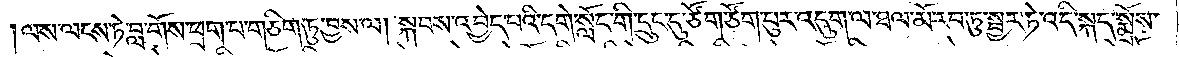ལས་ལངས་ཏེ་བླ་གོས་ཕྲག་པ་གཅིག་ཏུ་བྱས་ལ། སྐབས་འབྱེད་པའི་དགེ་སློང་གི་དྲུང་དུ་ཙོག་ཙོག་ཕུར་འདུག་ལ་ཐལ་མོ་རབ་ཏུ་སྦྱར་ཏེ་འདི་སྐད་སྨྲོས་
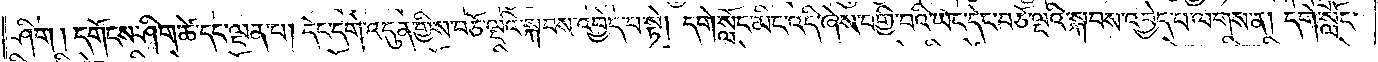ཤིག །དགོངས་ཤིག་ཚེ་དང་ལྡན་པ། དེང་དགེ་འདུན་གྱིས་བཅོ་ལྔའི་སྐབས་འབྱེད་པ་སྟེ། དགེ་སློང་མིང་འདི་ཞེས་བགྱི་བའི་ཡང་དེང་བཅོ་ལྔའི་སྐབས་འབྱེད་པ་ལགས་ན། དགེ་སློང་
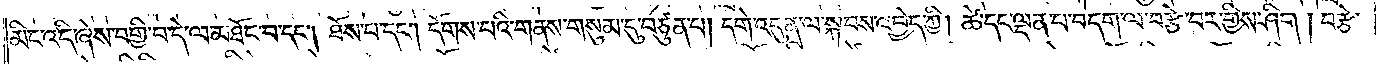མིང་འདི་ཞེས་བགྱི་བ་དེ་ལ་མཐོང་བ་དང༌། ཐོས་པ་དང༌། དོགས་པའི་གནས་གསུམ་དུ་བཙུན་པ། དགེ་འདུན་ལ་སྐབས་འབྱེད་ཀྱི། ཚེ་དང་ལྡན་པ་བདག་ལ་བརྩེ་བར་གྱིས་ཤིག །བརྩེ་
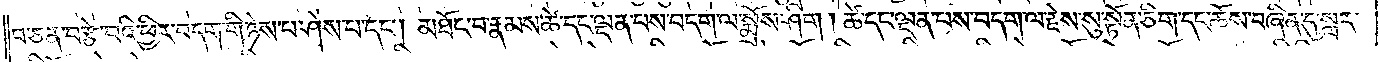བ་ཅན་བརྩེ་བའི་ཕྱིར་བདག་གི་ཉེས་པ་ཤེས་པ་དང༌། མཐོང་བ་རྣམས་ཚེ་དང་ལྡན་པས་བདག་ལ་སྨྲོས་ཤིག །ཚེ་དང་ལྡན་པས་བདག་ལ་རྗེས་སུ་སྟོན་ཅིག་དང་ཆོས་བཞིན་དུ་སླར་
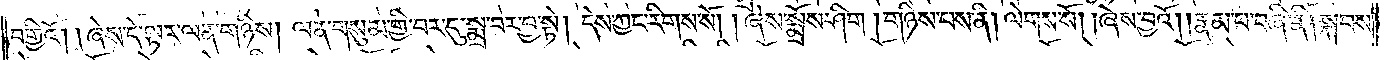བགྱིའོ། །ཞེས་དེ་ལྟར་ལན་གཉིས། ལན་གསུམ་གྱི་བར་དུ་སྨྲ་བར་བྱ་སྟེ། དེས་ཀྱང་རིགས་སོ། །ཞེས་སྨྲོས་ཤིག །གཉིས་པས་ནི། ལེགས་སོ། །ཞེས་བྱའོ། །རྣམ་པ་བཞི་ནི། །སྐབས་
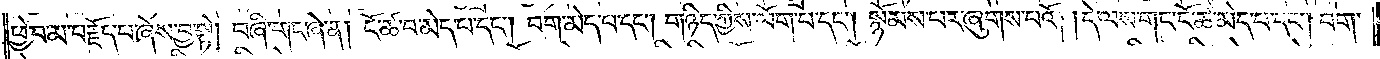ཕྱེ་བ་མ་བརྗོད་པ་ཞེས་བྱ་སྟེ། བཞི་གང་ཞེ་ན། ངོ་ཚ་བ་མེད་པ་དང༌། བག་མེད་པ་དང༌། གཉིད་ཀྱིས་ལོག་པ་དང༌། སྙོམས་པར་ཞུགས་པའོ། །དེ་ལས་གང་ངོ་ཚ་མེད་པ་དང༌། བག་
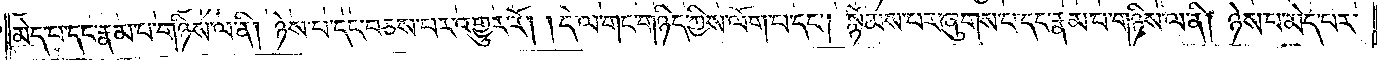མེད་པ་དང་རྣམ་པ་གཉིས་ལ་ནི། ཉེས་པ་དང་བཅས་པར་འགྱུར་རོ། །དེ་ལ་གང་གཉིད་ཀྱིས་ལོག་པ་དང༌། སྙོམས་པར་ཞུགས་པ་དང་རྣམ་པ་གཉིས་ལ་ནི། ཉེས་པ་མེད་པར་
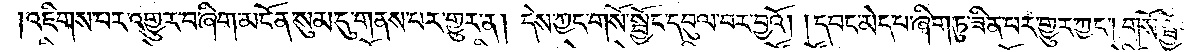འཇིགས་པར་འགྱུར་བ་ཞིག་མངོན་སུམ་དུ་གནས་པར་གྱུར་ན།   དེས་ཀྱང་གསོ་སྦྱོང་དབུལ་བར་བྱའོ། །དབང་མེད་པ་ཞིག་ཏུ་ཟིན་པར་གྱུར་ཀྱང༌། གསོ་སྦྱོང་
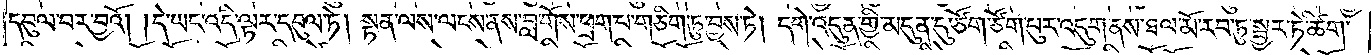དབུལ་བར་བྱའོ། །དེ་ཡང་འདི་ལྟར་དབུལ་ཏེ། སྟན་ལས་ལངས་ནས་བླ་གོས་ཕྲག་པ་གཅིག་ཏུ་བྱས་ཏེ། དགེ་འདུན་གྱི་མདུན་དུ་ཙོག་ཙོག་པུར་འདུག་ནས་ཐལ་མོ་རབ་ཏུ་སྦྱར་ཏེ་ཚིག་
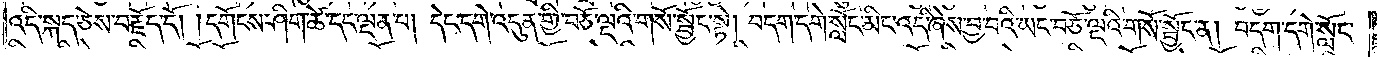འདི་སྐད་ཅེས་བརྗོད་དོ། །དགོངས་ཤིག་ཚེ་དང་ལྡན་པ། དེང་དགེ་འདུན་གྱི་བཅོ་ལྔའི་གསོ་སྦྱོང་སྟེ། བདག་དགེ་སློང་མིང་འདི་ཞེས་བྱ་བའི་ཡང་བཅོ་ལྔའི་གསོ་སྦྱོང་ན། བདག་དགེ་སློང་
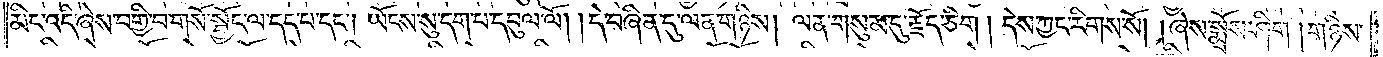མིང་འདི་ཞེས་བགྱི་བ་གསོ་སྦྱོང་ལ་དད་པ་དང༌། ཡོངས་སུ་དག་པ་དབུལ་ལོ། །དེ་བཞིན་དུ་ལན་གཉིས། ལན་གསུམ་དུ་རྗོད་ཅིག །དེས་ཀྱང་རིགས་སོ། །ཞེས་སྨྲོས་ཤིག །གཉིས་
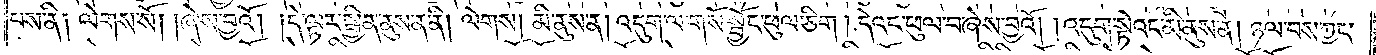པས་ནི༑ ལེགས་སོ། །ཞེས་བྱའོ། །དེ་ལྟར་སྦྱིན་ནུས་ན་ནི། ལེགས། མི་ནུས་ན། འདུག་ལ་གསོ་སྦྱོང་ཕུལ་ཅིག །དེའང་ཕུལ་བ་ཞེས་བྱའོ། འདུག་སྟེའང་མི་ནུས་ན། ཉལ་བས་ཀྱང་
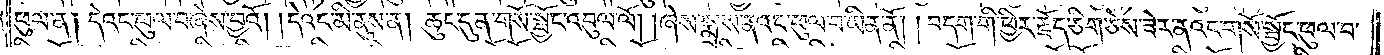ཕུལ་ན། དེའང་ཕུལ་བ་ཞེས་བྱའོ། །དེའང་མི་ནུས་ན། ཆུང་དུན་གསོ་སྦྱོང་འབུལ་ལོ། །ཞེས་སྨྲས་ནའང་ཕུལ་བ་ཡིན་ནོ། །བདག་གི་ཕྱིར་རྗོད་ཅིག་ཅེས་ཟེར་ནའང་གསོ་སྦྱོང་ཕུལ་བ་
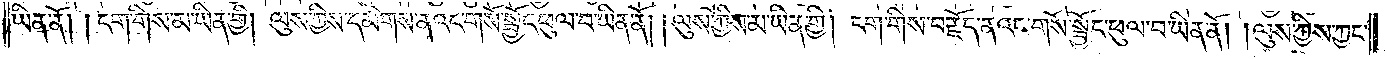ཡིན་ནོ། །ངག་གིས་མ་ཡིན་གྱི། ལུས་ཀྱིས་དམིགས་ནའང་གསོ་སྦྱོང་ཕུལ་བ་ཡིན་ནོ། །ལུས་ཀྱིས་མ་ཡིན་གྱི། ངག་གིས་བརྗོད་ནའང་གསོ་སྦྱོང་ཕུལ་བ་ཡིན་ནོ། །ལུས་ཀྱིས་ཀྱང་
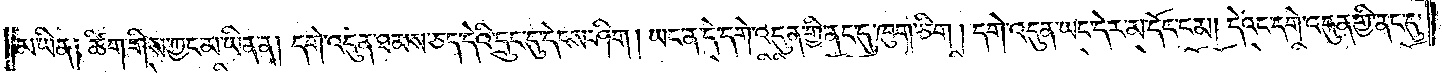མ་ཡིན༑ ཚིག་གིས་ཀྱང་མ་ཡིན་ན། དགེ་འདུན་ཐམས་ཅད་དེའི་དྲུང་དུ་དེངས་ཤིག །ཡང་ན་དེ་དགེ་འདུན་གྱི་ནང་དུ་ཁུག་ཅིག་༑དགེ་འདུན་ཡང་དེར་མ་དོང་ངམ། དེའང་དགེ་འདུན་གྱི་ནང་དུ་
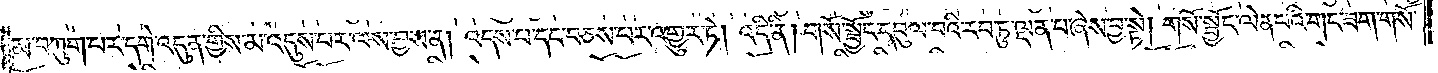མ་བཀུག་པར་དགེ་འདུན་གྱིས་མ་འདུས་པར་ལས་བྱས་ན། འདས་པ་དང་བཅས་པར་འགྱུར་ཏེ། འདི་ནི། གསོ་སྦྱོང་དབུལ་བའི་རབ་ཏུ་ལྡན་པ་ཞེས་བྱ་སྟེ། གསོ་སྦྱོང་ལེན་པའི་གང་ཟག་གསོ་
